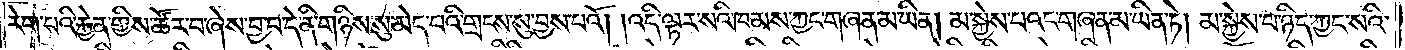རེག་པའི་རྐྱེན་གྱིས་ཚོར་བ་ཞེས་བྱ་བ་དེ་ནི་གཉིས་སུ་མེད་པའི་གྲངས་སུ་བྱས་པའོ། །འདི་ལྟར་སའི་ཁམས་ཀྱང་གཞན་མ་ཡིན། མ་སྐྱེས་པའང་གཞན་མ་ཡིན་ཏེ། མ་སྐྱེས་པ་ཉིད་ཀྱང་སའི་
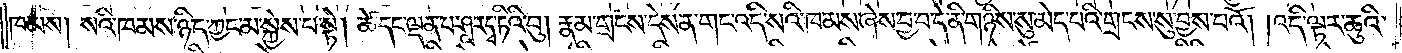ཁམས། སའི་ཁམས་ཉིད་ཀྱང་མ་སྐྱེས་པ་སྟེ། ཚེ་དང་ལྡན་པ་ཤཱ་ར་དྭ་ཏིའི་བུ། རྣམ་གྲངས་དེས་ན་གང་འདི་སའི་ཁམས་ཞེས་བྱ་བ་དེ་ནི་གཉིས་སུ་མེད་པའི་གྲངས་སུ་བྱས་པའོ། །འདི་ལྟར་ཆུའི་
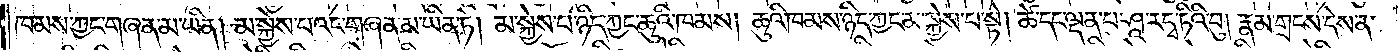ཁམས་ཀྱང་གཞན་མ་ཡིན། མ་སྐྱེས་པའང་གཞན་མ་ཡིན་ཏེ། མ་སྐྱེས་པ་ཉིད་ཀྱང་ཆུའི་ཁམས། ཆུའི་ཁམས་ཉིད་ཀྱང་མ་སྐྱེས་པ་སྟེ། ཚེ་དང་ལྡན་པ་ཤཱ་ར་དྭ་ཏིའི་བུ། རྣམ་གྲངས་དེས་ན་
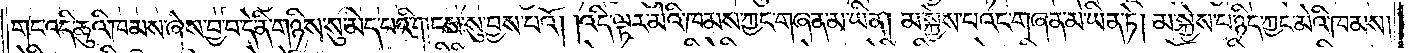གང་འདི་ཆུའི་ཁམས་ཞེས་བྱ་བ་དེ་ནི་གཉིས་སུ་མེད་པའི་གྲངས་སུ་བྱས་པའོ། །འདི་ལྟར་མེའི་ཁམས་ཀྱང་གཞན་མ་ཡིན། མ་སྐྱེས་པའང་གཞན་མ་ཡིན་ཏེ། མ་སྐྱེས་པ་ཉིད་ཀྱང་མེའི་ཁམས།
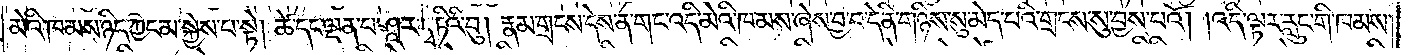མེའི་ཁམས་ཉིད་ཀྱང་མ་སྐྱེས་པ་སྟེ། ཚེ་དང་ལྡན་པ་ཤཱ་ར་དྭ་ཏིའི་བུ། རྣམ་གྲངས་དེས་ན་གང་འདི་མེའི་ཁམས་ཞེས་བྱ་བ་དེ་ནི་གཉིས་སུ་མེད་པའི་གྲངས་སུ་བྱས་པའོ། །འདི་ལྟར་རླུང་གི་ཁམས་
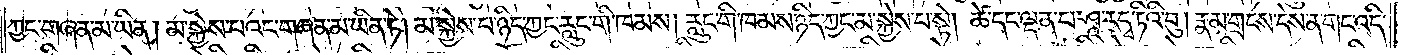ཀྱང་གཞན་མ་ཡིན། མ་སྐྱེས་པའང་གཞན་མ་ཡིན་ཏེ། མ་སྐྱེས་པ་ཉིད་ཀྱང་རླུང་གི་ཁམས། རླུང་གི་ཁམས་ཉིད་ཀྱང་མ་སྐྱེས་པ་སྟེ། ཚེ་དང་ལྡན་པ་ཤཱ་ར་དྭ་ཏིའི་བུ། རྣམ་གྲངས་དེས་ན་གང་འདི་
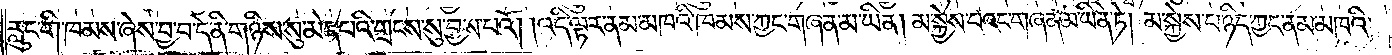རླུང་གི་ཁམས་ཞེས་བྱ་བ་དེ་ནི་གཉིས་སུ་མེད་པའི་གྲངས་སུ་བྱས་པའོ། །འདི་ལྟར་ནམ་མཁའི་ཁམས་ཀྱང་གཞན་མ་ཡིན། མ་སྐྱེས་པའང་གཞན་མ་ཡིན་ཏེ། མ་སྐྱེས་པ་ཉིད་ཀྱང་ནམ་མཁའི་
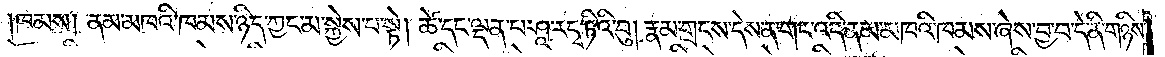ཁམས། ནམ་མཁའི་ཁམས་ཉིད་ཀྱང་མ་སྐྱེས་པ་སྟེ། ཚེ་དང་ལྡན་པ་ཤཱ་ར་དྭ་ཏིའི་བུ། རྣམ་གྲངས་དེས་ན་གང་འདི་ནམ་མཁའི་ཁམས་ཞེས་བྱ་བ་དེ་ནི་གཉིས་
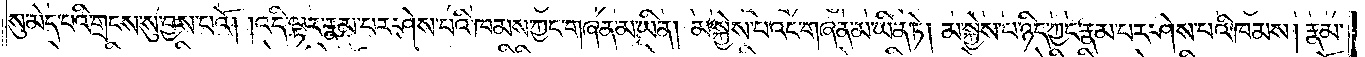སུ་མེད་པའི་གྲངས་སུ་བྱས་པའོ། །འདི་ལྟར་རྣམ་པར་ཤེས་པའི་ཁམས་ཀྱང་གཞན་མ་ཡིན། མ་སྐྱེས་པའང་གཞན་མ་ཡིན་ཏེ། མ་སྐྱེས་པ་ཉིད་ཀྱང་རྣམ་པར་ཤེས་པའི་ཁམས། རྣམ་
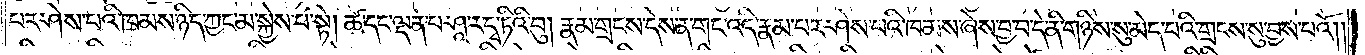པར་ཤེས་པའི་ཁམས་ཉིད་ཀྱང་མ་སྐྱེས་པ་སྟེ། ཚེ་དང་ལྡན་པ་ཤཱ་ར་དྭ་ཏིའི་བུ། རྣམ་གྲངས་དེས་ན་གང་འདི་རྣམ་པར་ཤེས་པའི་ཁམས་ཞེས་བྱ་བ་དེ་ནི་གཉིས་སུ་མེད་པའི་གྲངས་སུ་བྱས་པའོ། །
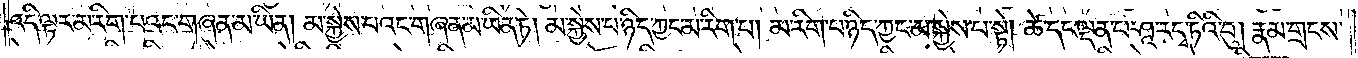འདི་ལྟར་མ་རིག་པའང་གཞན་མ་ཡིན། མ་སྐྱེས་པའང་གཞན་མ་ཡིན་ཏེ། མ་སྐྱེས་པ་ཉིད་ཀྱང་མ་རིག་པ། མ་རིག་པ་ཉིད་ཀྱང་མ་སྐྱེས་པ་སྟེ། ཚེ་དང་ལྡན་པ་ཤཱ་ར་དྭ་ཏིའི་བུ། རྣམ་གྲངས་
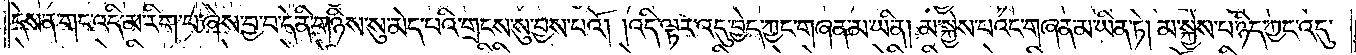དེས་ན་གང་འདི་མ་རིག་པ་ཞེས་བྱ་བ་དེ་ནི་གཉིས་སུ་མེད་པའི་གྲངས་སུ་བྱས་པའོ། །འདི་ལྟར་འདུ་བྱེད་ཀྱང་གཞན་མ་ཡིན། མ་སྐྱེས་པའང་གཞན་མ་ཡིན་ཏེ། མ་སྐྱེས་པ་ཉིད་ཀྱང་འདུ་
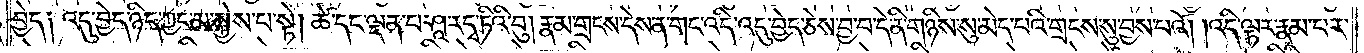བྱེད༏ འདུ་བྱེད་ཉིད་ཀྱང་མ་སྐྱེས་པ་སྟེ། ཚེ་དང་ལྡན་པ་ཤཱ་ར་དྭ་ཏིའི་བུ། རྣམ་གྲངས་དེས་ན། གང་འདི་འདུ་བྱེད་ཅེས་བྱ་བ་དེ་ནི་གཉིས་སུ་མེད་པའི་གྲངས་སུ་བྱས་པའོ། །འདི་ལྟར་རྣམ་པར་
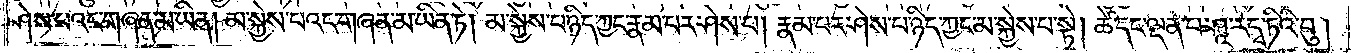ཤེས་པའང་གཞན་མ་ཡིན། མ་སྐྱེས་པའང་གཞན་མ་ཡིན་ཏེ། མ་སྐྱེས་པ་ཉིད་ཀྱང་རྣམ་པར་ཤེས་པ། རྣམ་པར་ཤེས་པ་ཉིད་ཀྱང་མ་སྐྱེས་པ་སྟེ། ཚེ་དང་ལྡན་པ་ཤཱ་ར་དྭ་ཏིའི་བུ།
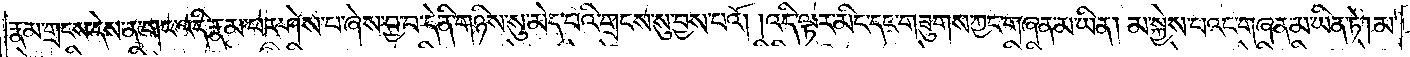རྣམ་གྲངས་དེས་ན་གང་འདི་རྣམ་པར་ཤེས་པ་ཞེས་བྱ་བ་དེ་ནི་གཉིས་སུ་མེད་པའི་གྲངས་སུ་བྱས་པའོ། །འདི་ལྟར་མིང་དང་གཟུགས་ཀྱང་གཞན་མ་ཡིན། མ་སྐྱེས་པའང་གཞན་མ་ཡིན་ཏེ། མ་
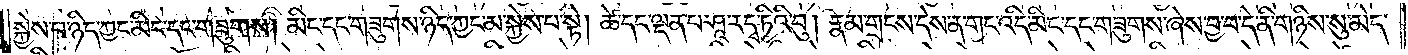སྐྱེས་པ་ཉིད་ཀྱང་མིང་དང་གཟུགས། མིང་དང་གཟུགས་ཉིད་ཀྱང་མ་སྐྱེས་པ་སྟེ། ཚེ་དང་ལྡན་པ་ཤཱ་ར་དྭ་ཏིའི་བུ། རྣམ་གྲངས་དེས་ན་གང་འདི་མིང་དང་གཟུགས་ཞེས་བྱ་བ་དེ་ནི་གཉིས་སུ་མེད་
